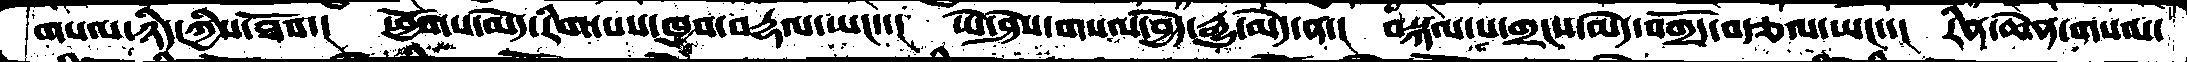གསལ་ཉིད་ཀྱིས་ཐོབ་།  ཕྱོགས་མེད་རིག་པས་ཁྱབ་བརྡལ་ཡང་་།  ཡེ་ཤེས་གསལ་བྱེད་རྒྱུ་མེད་ན་།  བསྐལ་པ་གྲངས་མེད་བགྲོད་བརྩལ་ཡང་་།  རིན་ཆེན་གསལ་
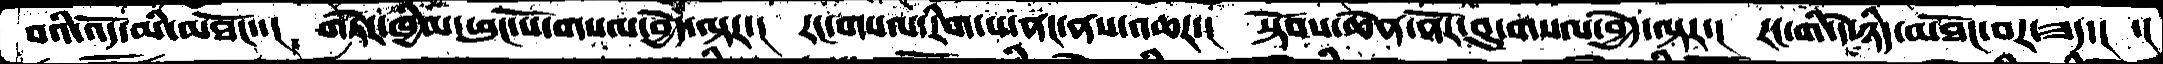བའི་འོད་མི་མཐོང་་།  གཏེར་ཁྱིམ་ཕུང་པོ་གསལ་བྱེད་ལྟར་།  རང་གསལ་རིག་པ་ནང་ནས་འཆར་།  སྟོབས་ཆེན་ནོར་བུ་གསལ་བྱེད་ལྟར་།  རང་གི་དེ་ཉིད་མཐོང་བར་ཟད་།  ་།
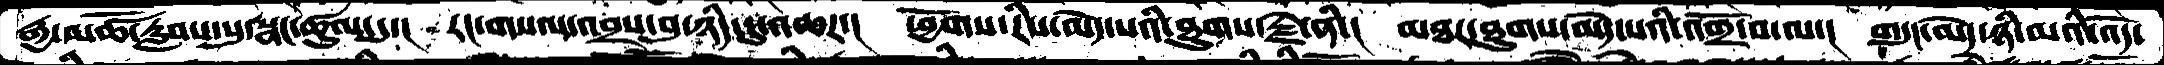རྒྱ་མཚོ་རླབས་སུ་སྣང་ཚུལ་དུ་།  རང་གསལ་འབྲས་བུ་ཉིད་དུ་འཆར་།  ཕྱོགས་རིས་མེད་པའི་ཐུགས་རྗེ་ནི་།  མཐར་ཐུགས་མེད་པའི་འགྲོ་བ་ལ་།  གདུང་མེད་ཉི་མའི་འོད་
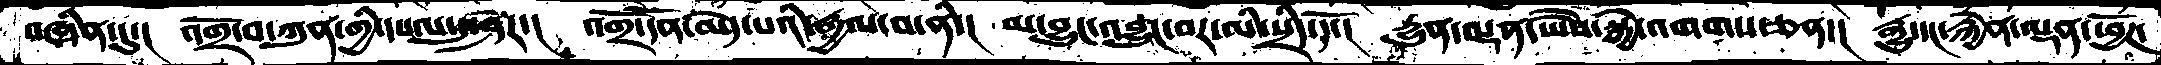བཞིན་དུ་།   འགྲོ་བ་ཀུན་གྱི་དཔལ་དུ་ཤར་།  འགྲོ་དོན་མེད་པའི་རྒྱལ་བ་ནི་།  མ་བྱུང་འབྱུང་བར་མི་སྲིད་དོ་།  དྱུན་ལྡན་ཡཻས་སྐྱེ་འགགས་ཅན་།  རྒྱུ་དང་རྐྱེན་ལྡན་ཕྱོཌ་
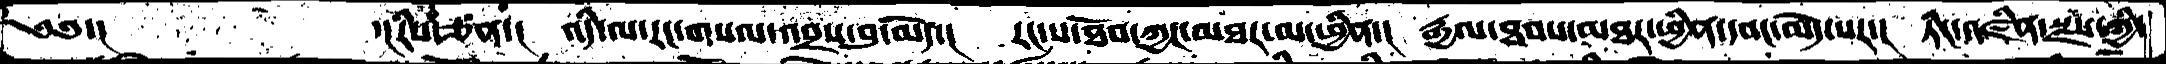༄༅་།             ་།རིས་ཅན་།   འདི་ལ་རང་གསལ་འབྲས་བུ་མེད་།  རང་ས་ཐོབ་ཀྱང་མཐར་མ་ཕྱིན་།  རྒྱལ་ཐབས་མཐར་ཕྱིན་དབང་མེད་པར་།   ཏིང་འཛིན་སྫས་ཀྱི་
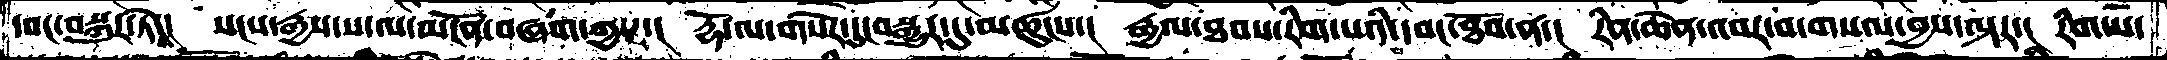དབང་བསྐུར་ཏེ་།   སངས་རྒྱས་ས་ལ་མངོན་བཞག་ཀྱང་་།  རྡོ་ལ་གསེར་དུངབསྒྱུར་དུ་མཚུངས་།  རྒྱལ་ཐབས་རིག་པའི་དབང་ཐོབ་ན་།  རིན་ཆེན་འབར་བ་གསལ་བྱས་ལྟར་།  རིག་པ་
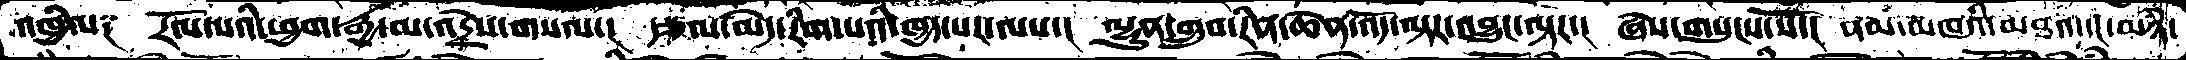འཁྱིལ༑  རོལ་པའི་ཕྱག་རྒྱ་མ་འདྲེས་གསལ་།  རྩལ་མེད་རིག་པའི་ཁྱད་པར་ལས་།  ལྷུན་གྲུབ་རིན་ཆེན་འོད་ལྟར་འབྱུང་ལྟར་།  ཞེས་གསུངས་སོ་།  ནམ་མཁའི་མཐའ་དང་མཉཾ་
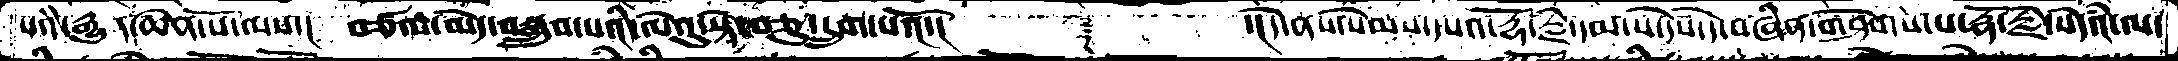པའི་རྒྱུད་ཆེན་པོ་ལས་།  བཙལ་མེད་བསྒྲུབ་པའི་ལེའུ་སྟེ་བཅུ་དྲུག་པའོ་།     ༈      ་།དེ་ནས་སེམས་དཔའ་རྡོ་རྗེ་དམ་པ་དེས་དེ་བཞིན་གཤེགས་པ་རྡོ་རྗེ་སེཾདའ་ལ་
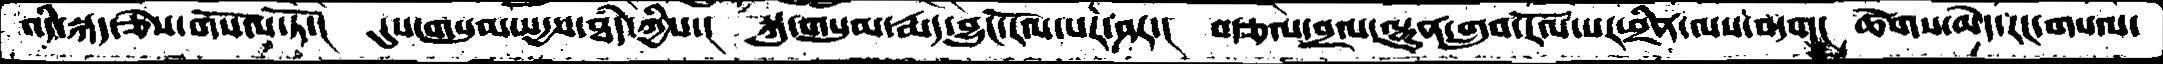འདི་སྐད་ཅེས་གསོལ་ཏོ་།  དུས་གསུམ་སདྱས་ཐཾད་ཀྱིས་།  སྐུ་གསུམ་རྨད་བྱུང་རོལ་པར་ཤར་།  བརྩལ་བྲལ་ལྷུན་གྲུབ་རོལ་པར་ཕྲིན་ལས་བདག།  ཚེགས་མེད་རང་གསལ་
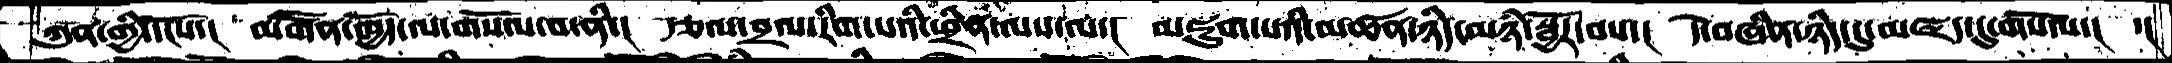ཀུན་གྱི་དངོས་།  མགཽན་ཁྱོད་ལ་གསོལ་བ་ནི་།  རྩལ་བྲལ་རིག་པའི་ཕྲིན་ལས་ལ་།  མཇུག་པའི་མཚན་ཉིད་མཉཾ་སྦྱོར་བས་།  དེ་བཞིན་ཉིད་དུ་མཛད་དུ་གསོལ་།  ་།
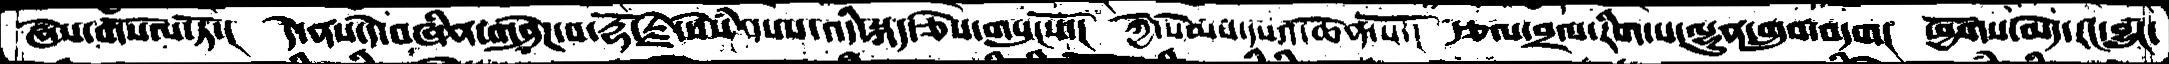ཞེས་གསོལ་ཏོ་།  དེ་ནས་དེ་བཞིན་གཤེཌ་པ་རྡོ་རྗེ་སེསཾ་དཔས་འདི་སྐད་ཅེས་གསུངསོ་།  ཀྱེ་སེམས་དཔའ་ཆེན་པོ་། རྩལ་བྲལ་རིག་པ་ལྷུན་གྲུབ་བདག།  ཕྱོགས་མེད་རང་བྱུང་
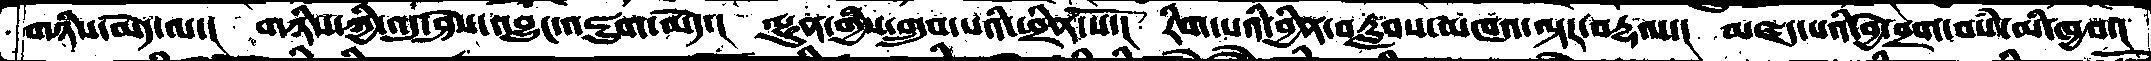གཉིས་མེད་ལ་།  གཉིས་ཀྱི་འདུ་ཤེས་འབྱུང་འཇུག་མེད་།  ལྷུན་གྱིས་གྲུབ་པའི་ཕྲིན་སོ་།  རིག་པའི་བྱིན་བརླབས་མཁའ་ལྟར་བརྡལ་།  མཛད་པའི་བྱེ་བྲག་བསཾ་མི་ཁྱབ་།
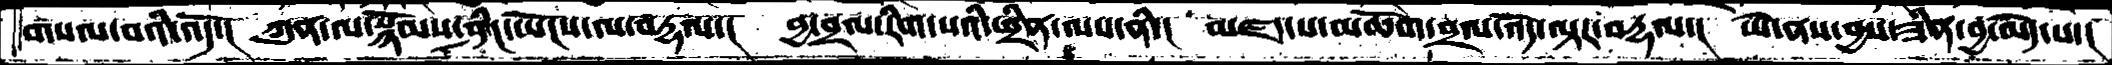གསལ་བའི་འདོ་།  ཀུན་ལ་སྙོམས་ཤིང་ཡོངས་ལ་བརྡལ་།  བྱ་བྲལ་རིག་པའི་ཕྲིན་ལས་ནི་།  མཛད་པ་མཆོག་བྲལ་འདོ་ལྟར་བརྡལ་།  ཡེ་ནས་བྱས་ཟིན་བྱ་མེད་པ་།
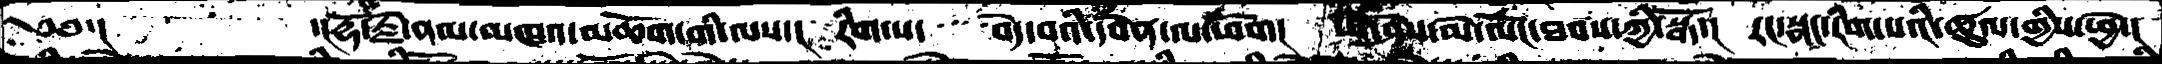༄༅་།          ་།རྡོ་རྗེ་ནམ་མཁའ་མཆོག་གི་ལས་།  རིག་པ་   བདེ་བའི་དབེན་ལ་ཕོག།  ཡེ་ཤེས་མེ་ལོང་ཐབས་ཀྱི་སྒོ་།  རང་སྣང་རིག་པའི་ཚུལ་གྱིས་ཕྱེ་།
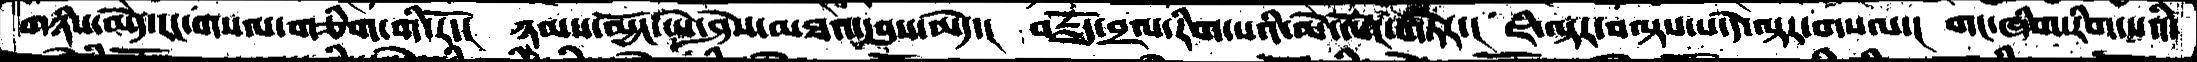གཉིས་མེད་རང་གསལ་གཅིག་གི་རོ་།  ཉམས་མྱོང་ཡེ་ཤེས་མཐའ་དབུས་མེད་།  བརྗོད་བྲལ་རིག་པའི་མེ་ལོང་གཏེར་།  ཇི་ལྟར་བལྟས་པ་དེ་ལྟར་གསལ་།  གང་ཞིག་རིག་པའི་
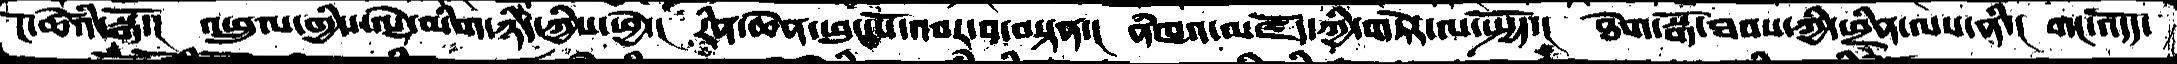ངོ་ཚེའི་སྒོ་།   འཕྲུལ་གྱིས་ལྡེ་མིག་ཉིད་ཀྱིས་ཕྱེ་།  རིན་ཆེན་ཕུང་པོ་འབར་བ་བསྟན་།  ནཾཁའ་མཛོད་ཀྱི་གཏེར་ལ་སྤྱོད་།  ཐེག་སྒོ་ཐབས་ཀྱི་ཕྲིན་ལས་ནི་།  གང་འདོད་
